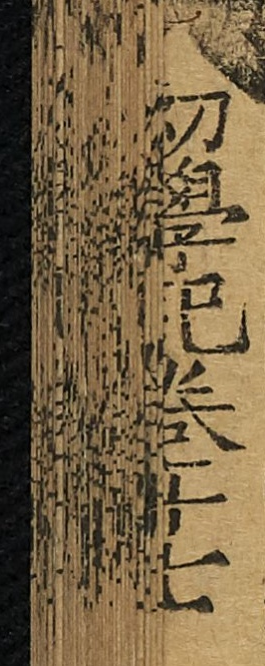初學記卷十七
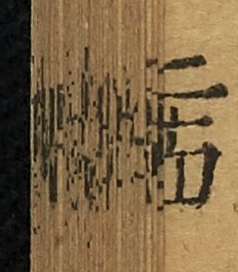二十四
